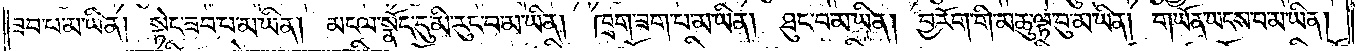ཟབ་པ་མ་ཡིན། སྟེང་ཟབ་པ་མ་ཡིན། མངལ་སྣོད་དུ་མི་རུང་བ་མ་ཡིན། ཁྲག་ཟག་པ་མ་ཡིན། ཐུང་བ་མ་ཡིན། བྱ་རོག་གི་མཆུ་ལྟ་བུ་མ་ཡིན། གཡོན་ཡངས་པ་མ་ཡིན།
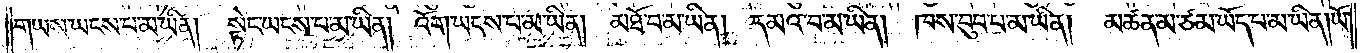གཡས་ཡངས་པ་མ་ཡིན། སྟེང་ཡངས་པ་མ་ཡིན། འོག་ཡངས་པ་མ་ཡིན། མཐོ་བ་མ་ཡིན། དམའ་བ་མ་ཡིན། ཁས་བུབ་པ་མ་ཡིན། མཚན་མ་ཙམ་ཡོད་པ་མ་ཡིན། ཡོ་
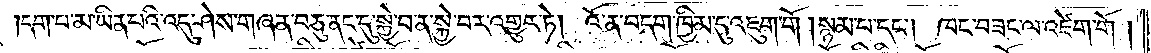དག་པ་མ་ཡིན་པའི་འདུ་ཤེས་གཞན་བཅུ་ནང་དུ་སྐྱེ་བ་ན་སྐྱེ་བར་འགྱུར་ཏེ། འོ་ན་བདག་ཁྱིམ་དུ་འཇུག་གོ །སྙམ་པ་དང༌། ཁང་བཟང་ལ་འཛེག་གོ །
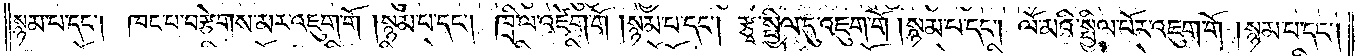སྙམ་པ་དང༌། ཁང་པ་བརྩེགས་མར་འཇུག་གོ །སྙམ་པ་དང༌། ཁྲི་ལ་འཛེག་གོ །སྙམ་པ་དང༌། རྩྭ་སྤྱིལ་དུ་འཇུག་གོ །སྙམ་པ་དང༌། ལོ་མའི་སྤྱིལ་པོར་འཇུག་གོ །སྙམ་པ་དང༌།
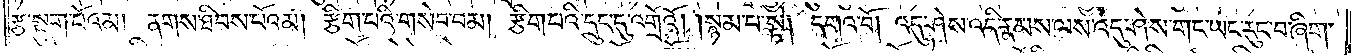རྩ་སྟུག་པོའམ། ནགས་ཐིབས་པོའམ། རྩིག་པའི་གསེབ་བམ། རྩིག་པའི་དྲུང་དུ་འགྲོའོ། །སྙམ་པ་སྟེ། དགའ་བོ། འདུ་ཤེས་འདི་རྣམས་ལས་འདུ་ཤེས་གང་ཡང་རུང་བ་ཞིག་
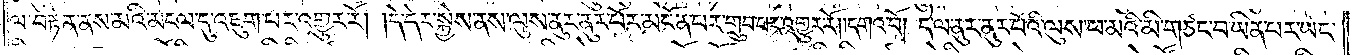ལ་བརྟེན་ནས་མའི་མངལ་དུ་འཇུག་པར་འགྱུར་རོ། །དེ་དེར་སྐྱེས་ནས་ལུས་ནུར་ནུར་པོར་མངོན་པར་གྲུབ་པར་འགྱུར་རོ། །དགའ་བོ། དེ་ལ་ནུར་ནུར་པོའི་ལུས་ཕ་མའི་མི་གཙང་བ་ཡིན་པར་ཡང་
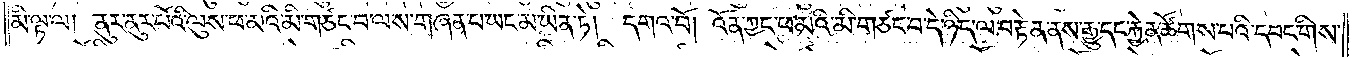མི་ལྟ་ལ། ནུར་ནུར་པོའི་ལུས་ཕ་མའི་མི་གཙང་བ་ལས་གཞན་པ་ཡང་མ་ཡིན་ཏེ། དགའ་བོ། འོན་ཀྱང་ཕ་མའི་མི་གཙང་བ་དེ་ཉིད་ལ་བརྟེན་ནས་རྒྱུ་དང་རྐྱེན་ཚོགས་པའི་དབང་གིས་
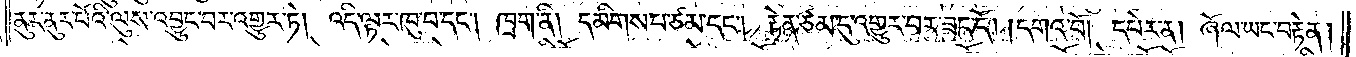ནུར་ནུར་པོའི་ལུས་འབྱུང་བར་འགྱུར་ཏེ། འདི་ལྟར་ཁུ་བ་དང༌། ཁྲག་ནི། དམིགས་པ་ཙམ་དང༌། རྟེན་ཙམ་དུ་འགྱུར་བར་ཟད་དོ། །དགའ་བོ། དཔེར་ན། ཞོལ་ཡང་བརྟེན།
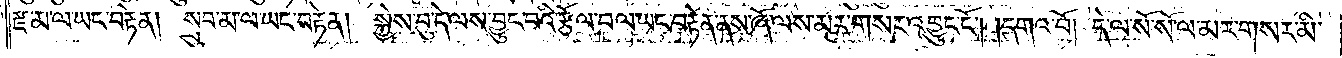རྫ་མ་ལ་ཡང་བརྟེན། སྲུབ་མ་ལ་ཡང་བརྟེན། སྐྱེས་བུ་དེ་ལས་བྱུང་བའི་རྩོལ་བ་ལ་ཡང་བརྟེན་ནས་ཞོ་ལས་མར་གསར་འབྱུང་ངོ༌། །དགའ་བོ། དེ་ལ་སོ་སོ་ལ་མར་གསར་མི་
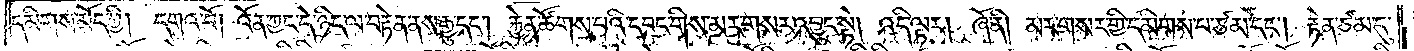དམིགས་མོད་ཀྱི། དགའ་བོ། འོན་ཀྱང་དེ་ཉིད་ལ་བརྟེན་ནས་རྒྱུ་དང༌། རྐྱེན་ཚོགས་པའི་དབང་གིས་མར་གསར་འབྱུང་སྟེ། འདི་ལྟར། ཞོ་ནི། མར་གསར་གྱི་དམིགས་པ་ཙམ་དང༌། རྟེན་ཙམ་དུ་
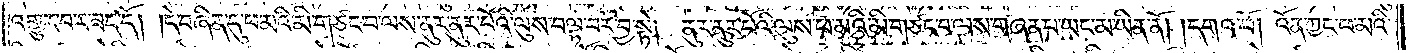འགྱུར་བར་ཟད་དོ། །དེ་བཞིན་དུ་ཕ་མའི་མི་གཙང་བ་ལས་ནུར་ནུར་པོའི་ལུས་བལྟ་བར་བྱ་སྟེ། ནུར་ནུར་པོའི་ལུས་ཕ་མའི་མི་གཙང་བ་ལས་གཞན་པ་ཡང་མ་ཡིན་ནོ། །དགའ་བོ། འོན་ཀྱང་ཕ་མའི་
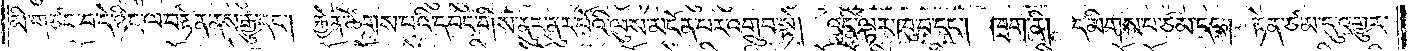མི་གཙང་བ་དེ་ཉིད་ལ་བརྟེན་ནས་རྒྱུ་དང༌། རྐྱེན་ཚོགས་པའི་དབང་གིས་ནུར་ནུར་པོའི་ལུས་མངོན་པར་འགྲུབ་སྟེ། འདི་ལྟར་ཁུ་བ་དང༌། ཁྲག་ནི། དམིགས་པ་ཙམ་དང༌། རྟེན་ཙམ་དུ་འགྱུར་
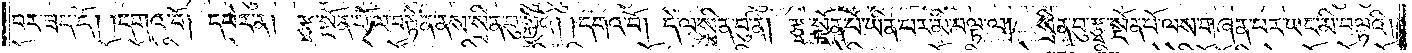བར་ཟད་དོ། །དགའ་བོ། དཔེར་ན། རྩྭ་སྔོན་པོ་ལ་བརྟེན་ནས་སྲིན་བུ་སྐྱེའོ། །དགའ་བོ། དེ་ལ་སྲིན་བུ་ནི། རྩྭ་སྔོན་པོ་ཡིན་པར་མི་བལྟ་ལ། སྲིན་བུ་རྩྭ་སྔོན་པོ་ལས་གཞན་པར་ཡང་མི་བལྟའི།
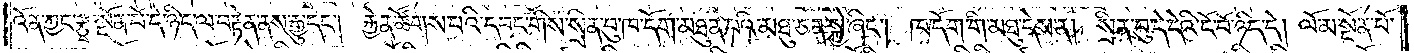འོན་ཀྱང་རྩྭ་སྔོན་པོ་དེ་ཉིད་ལ་བརྟེན་ནས་རྒྱུ་དང༌། རྐྱེན་ཚོགས་པའི་དབང་གིས་སྲིན་བུ་ཁ་དོག་མཐུན་པའི་མཐུ་ཅན་སྐྱེ་ཞིང༌། ཁ་དོག་གི་མཐུ་དེས་ན། སྲིན་བུ་དེ་དེའི་ངོ་བོ་ཉིད་དེ། ལོ་མ་སྔོན་པོ་
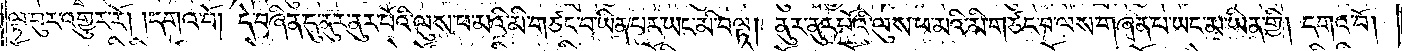ལྟ་བུར་འགྱུར་རོ། །དགའ་བོ། དེ་བཞིན་དུ་ནུར་ནུར་པོའི་ལུས་ཕ་མའི་མི་གཙང་བ་ཡིན་པར་ཡང་མི་བལྟ། ནུར་ནུར་པོའི་ལུས་ཕ་མའི་མི་གཙང་བ་ལས་གཞན་པ་ཡང་མ་ཡིན་གྱི། དགའ་བོ།
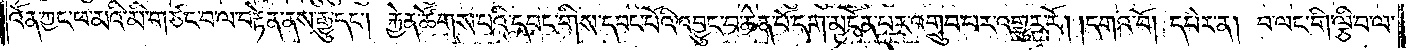འོན་ཀྱང་ཕ་མའི་མི་གཙང་བ་ལ་བརྟེན་ནས་རྒྱུ་དང༌། རྐྱེན་ཚོགས་པའི་དབང་གིས་དབང་པོའི་འབྱུང་བ་ཆེན་པོ་དག་མངོན་པར་འགྲུབ་པར་འགྱུར་རོ། །དགའ་བོ། དཔེར་ན། བ་ལང་གི་ལྕི་བ་ལ་
